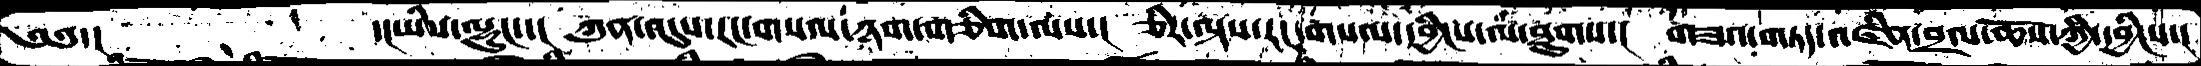༄༅་།        ་།ཡིས་ལྷུང་་།   ཀུན་འདུས་རང་གསལ་ཉག་གཅིག་ལས་།  ཅིར་ལྟས་རང་གསལ་དབྱིངས་ལ་ཐུགས་།  གཟའ་གཏད་འཛིན་བྲལ་ཆོས་ཀྱི་དབྱིངས་།
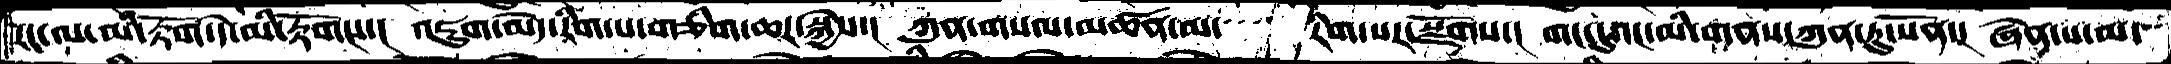རང་ལ་མི་རྟོག་དེ་མི་རྟོགས་།  འཇུག་མེད་རིག་པ་གཅིག་ཆར་སྐྱེས་།  ཀུན་གསལ་མཚན་མ་   རིག་པར་སྫོགས་།  གང་དུའང་མི་གནས་ཀུན་ཏུ་སོན་།  ཞེན་པ་མ་
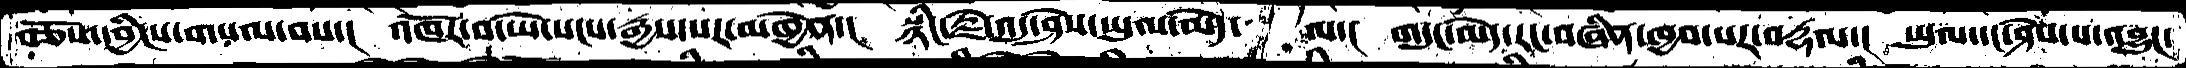བཅོས་དབྱིངས་གསལ་བས་།   འཁོར་བ་ཡེ་སངས་རྒྱས་པར་མཁྱེན་།   སྙིང་རྗེ་འདུ་ཤེས་ཡུལ་མེད་  ལ་།  གདུང་མེད་རང་བཞིན་ཁྱབ་པར་བརྡལ་།  ཡུལ་དང་ཤེས་པ་འབྱུང་
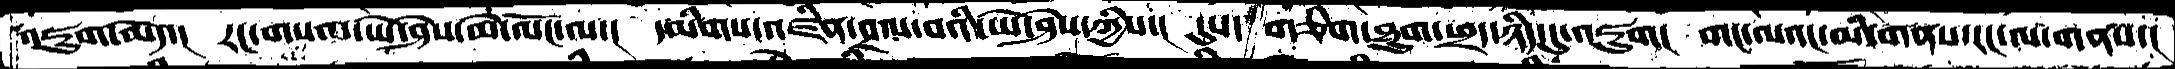འཇུག་མེད་།    རང་གསལ་ཡེ་ཤེས་མེ་ལོང་ལ་།  དམིགས་འཛིན་བྲལ་བའི་ཡེ་ཤེས་ཀྱིས་།  དུས་ གཅིག་ཐུག་ཕྲད་ཉིད་དུ་འཇུག།  གང་ལའང་མི་གནས་རང་ལ་གནས་།
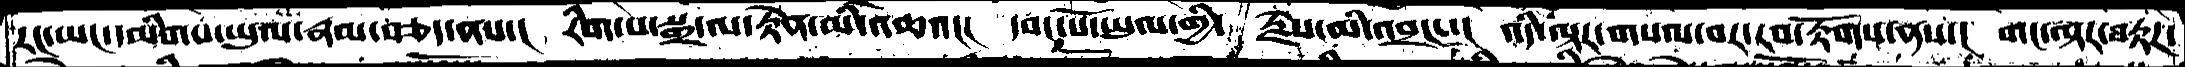རང་ཡང་དམིགས་ཡུལ་རྣམ་བཅད་ནས་།  རིག་པ་སྒྲ་ལ་རྟེན་མི་འཆའ།།།  དབང་པོ་ཡུལ་གྱི་  རྗེས་མི་འབྲང་་།  འདི་ལྟར་གསལ་བར་རབ་རྟོགས་ནས་།  གང་ལྟར་བརྟཌ་
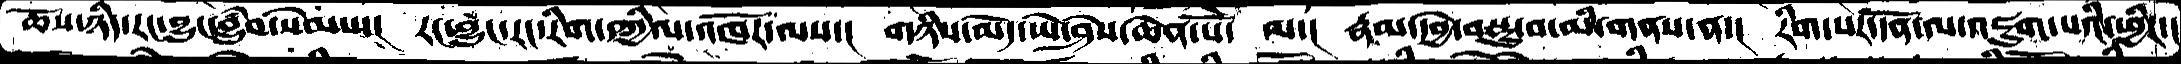ཆོས་ཉིད་རང་བྱུང་བྱུཾབ་སེམས་།  རང་བྱུང་རང་རིག་དཀྱིལ་འཁོར་ལས་།  གཉིས་མེད་ཡེ་ཤེས་ཆེན་པོ་  ལ་།   རྣམ་དབྱེ་བསྡུ་བ་མི་གནས་ན་།  རིག་པར་དོན་ལ་འཇུག་པའི་ཕྱིར་།
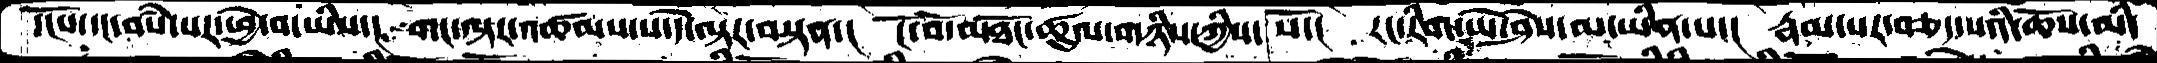དངོས་དང་བསཾ་པར་ཕྱེ་བ་ཡིས་།  གང་ལྟར་འཚམས་པ་དེ་ལྟར་བསྟན་།  ངོ་བོ་མཐོང་ཚུལ་གཉིས་ཀྱིས་སོ་།  རང་རིག་ཡེ་ཤེས་མ་ཡིན་པ་།  རྣམ་པར་བཅད་པའི་ཆོས་མི་
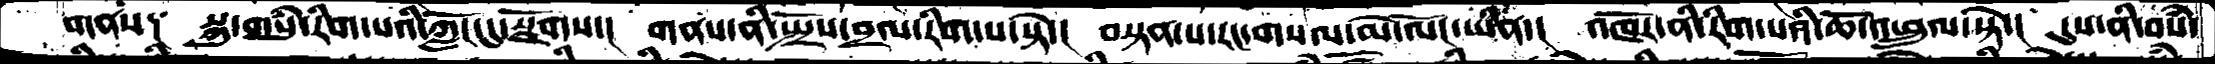གནས༑   སྐུ་གསུཾ་རིག་པའི་ཀློང་དུ་སྫོགས་།   གནས་ནི་སྤྲོས་བྲལ་རིག་པ་སྟེ་།  བསྟན་པ་རང་གསལ་མེ་ལོང་ཡིན་།  འཁོར་ནི་རིག་པའི་ཆོ་འཕྲུལ་སྟེ་།  དུས་ནི་བསཾ་
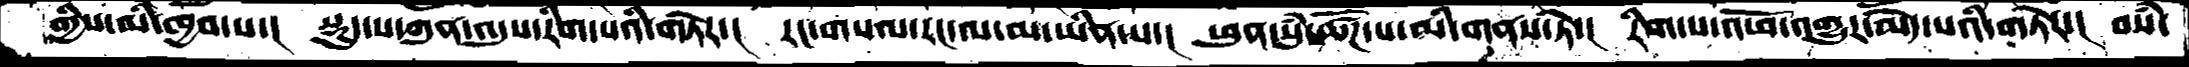གྱིས་མི་ཁྱབ་པ་།  སྡུད་པ་ཀུན་འདུས་རིག་པའི་གཏེར་།  རང་གསལ་རང་ལ་མ་ཡིན་པ་།  ཕུན་སུཾ་ཚོཌ་པ་མི་གནས་ཏེ་།  རིག་པ་འཕོ་འགྱུར་མེད་པའི་གཏེར་།  བསཾ་
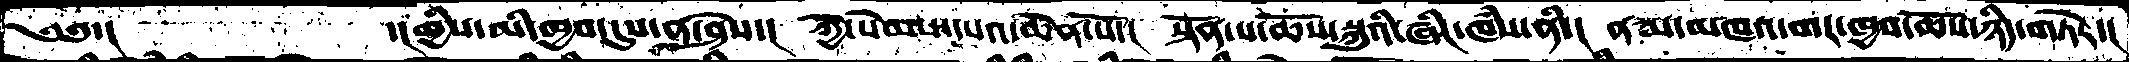༄༅་།             ་།གྱིས་མི་ཁྱབ་དུས་ན་ཤེས་།  ཀྱེ་སེམས་དཔའ་ཆེན་པོ་།  སྟོན་པ་ཆོས་སྐུའི་ཞིང་ཁཾས་ནི་།   ནམ་མཁའ་གར་ཁྱབ་ཆོས་ཉིད་གཏེར་།
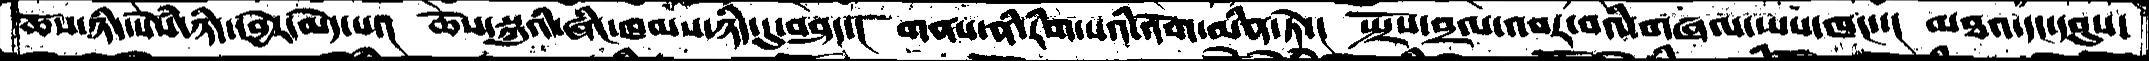ཆོས་ཉིད་སེཾས་ཉིད་དབྱེར་མེད་པ་།   ཆོས་སྐུའི་ཞིང་ཁམས་ཉིད་དུ་བཤད་།   གནས་ནི་རིག་པའི་འོག་མིན་ཏེ་།  སྤྲོས་བྲལ་འབར་བའི་གཞལ་ཡས་ཁང་་།  མཐའ་དང་དབུས་
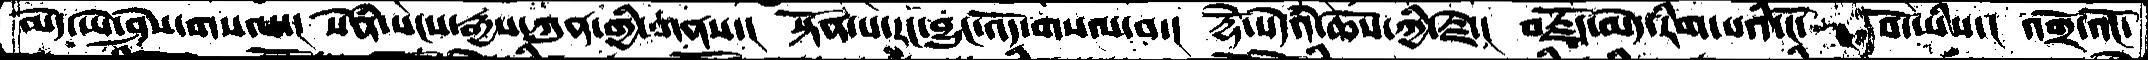མེད་ཡེ་ཤེས་གསལ་།  སེནཾ་སངས་རྒྱས་ཀུན་གྱི་གནས་།  སྟོན་པ་རང་བྱུང་འོད་གསལ་བ་།  རྡོེ་སེདཾའ་ཆོས་ཀྱི་རྗེ་།   བརྗོད་མེད་རིག་པའི་ངོ་བོ་ཡིས་།   འགྲོ་འོང་
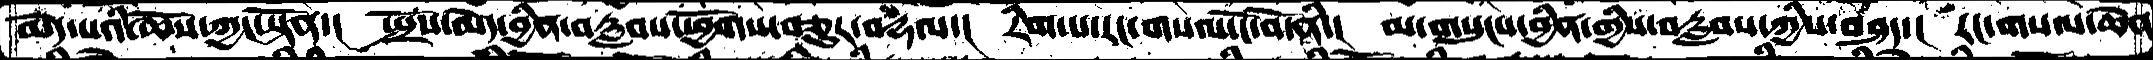མེད་པའི་ཆོས་ཀྱང་སྟོན་།  སྤྲོས་མེད་བྱིན་བརླབས་ཕྱོགས་བཅུར་བརྡལ་།  རིག་པ་རང་གསལ་ངོ་བོ་ནི་།  མ་གསུངས་བྱིན་གྱིས་བརླབས་ཀྱིས་བཤད་།  རང་གསལ་ཆེན
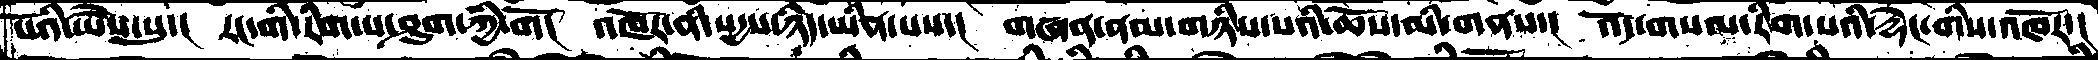པོའི་ཡཻས་སུ་།  རང་གི་རིག་པ་ཤུག་ཀྱི་གོ།  འཁོར་ནི་སདྱས་ཉིད་ཡིན་པས་།  གཞན་ནམ་གཉིས་པའི་ཆོས་མི་གནས་།  འོད་གསལ་རིག་པའི་རྡེང་གིས་འཁོར་།
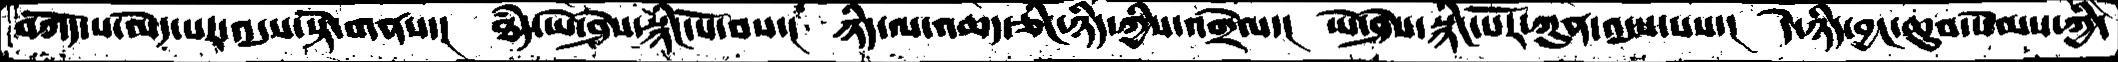བཀོད་པ་མེད་པར་འདུས་སྟེ་གནས་།   ཐཾད་ཡེ་ཤེས་སྙིང་པོ་བས་།  ཉིད་ལ་འཆད་ཅིང་ཉིད་ཀྱིས་འགྲེལ་།  ཡེ་ཤེས་སྙིང་པོར་ཀུན་འདུས་པས་།  དེ་ཉིད་བྱང་ཆུབ་སེམས་ཀྱི་
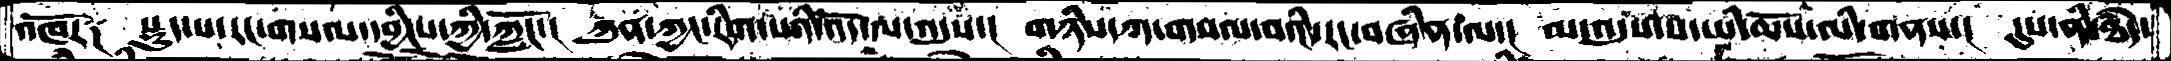འཁོར༑     སྡུད་པ་རང་གསལ་དབྱིངས་ཀྱི་ཀློང་་།  ཀུ་ཀྱང་རིག་པའི་འོད་ལ་འདུས་།  གཉིས་ཀ་གསལ་བའི་རང་བཞིན་ལ་།  མ་འདུས་པ་ཡི་ཆོས་མི་གནས་།  དུས་ནི་ཐཾད་
